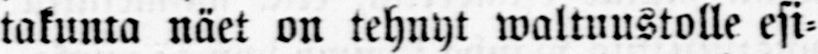takunta näet on tehnyt waltuustolle esi-
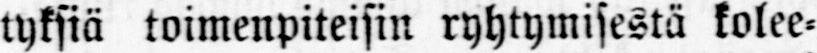tyksiä toimenpiteisin ryhtymisestä kolee-
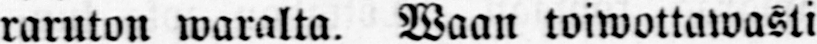raruton waralta. Waan toiwottawasti
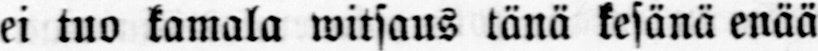ei tuo kamala witsaus tänä kesänä enää
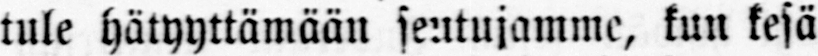tule hätyyttämään seutujamme, kun kesä
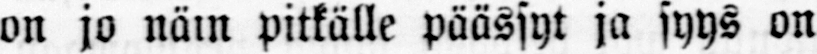on jo näin pitkälle päässyt ja syys on
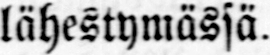lähestymässä.
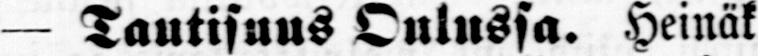— Tautisuus Oulussa. Heinäk.
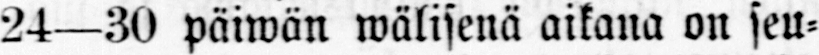24—30 päiwän wälisenä aikana on seu-
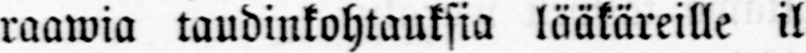raawia taudinkohtauksia lääkäreille il-
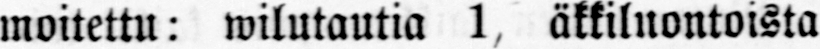moitettu: wilutautia 1, äkkiluontoista
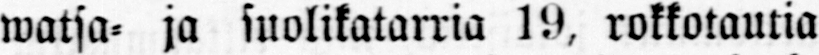watsa- ja suolikatarria 19, rokkotautia
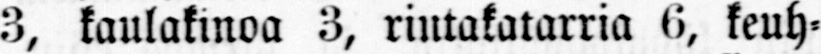3, kaulakinoa 3, rintakatarria 6, keuh-
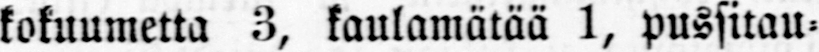kokuumetta 3, kaulamätää 1, pussitau-
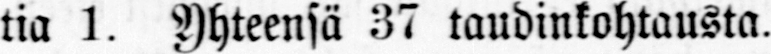tia l. Yhteensä 37 taudinkohtausta.
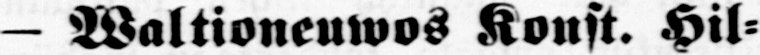— Waltioneuwos Konst. Hil-
